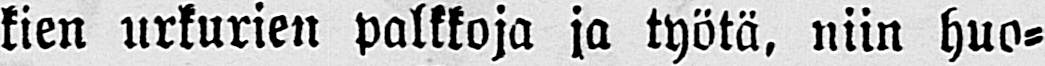kien urkurien palkkoja ja työtä, niin huo-
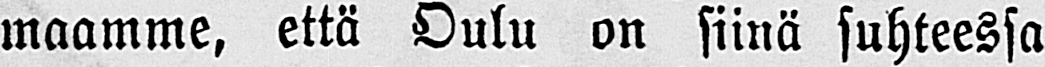maamme, että Oulu on siinä suhteessa
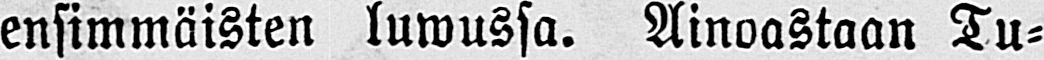ensimmäisten luwussa. Ainoastaan Tu-
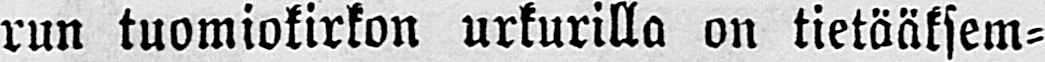run tuomiokirkon urkurilla on tietääksem-
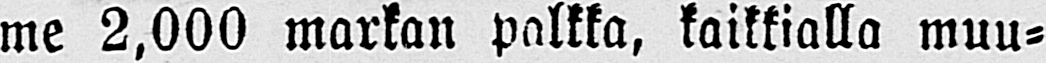me 2,000 markan palkka, kaikkialla muu-
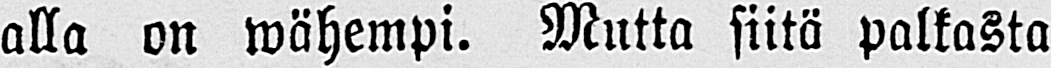alla on wähempi. Mutta siitä palkasta
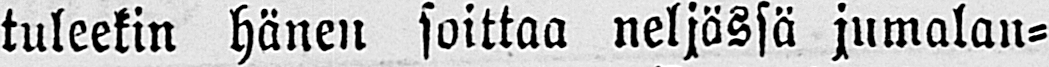tuleekin hänen soittaa neljässä jumalan-
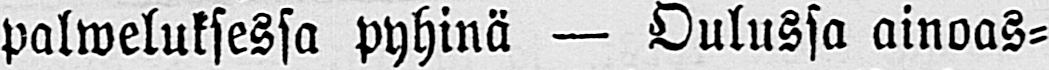palweluksessa pyhinä — Oulussa ainoas-
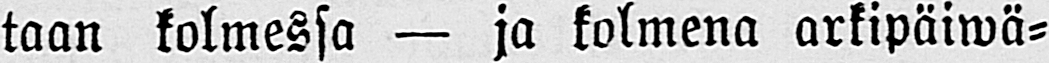taan kolmessa — ja kolmena arkipäiwä-
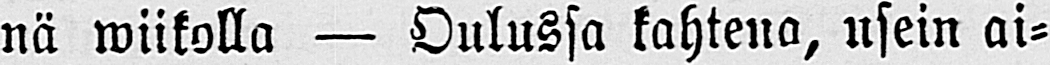nä wiikolla — Oulussa kahtena, usein ai-
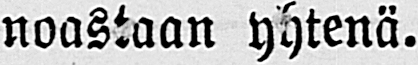noastaan yhtenä.
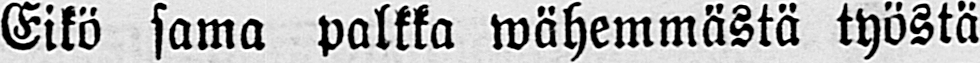Eikö sama palkka wähemmästä työstä
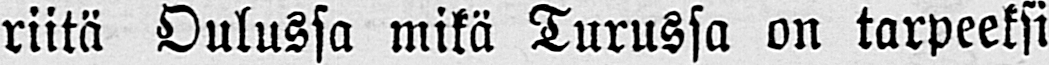riitä Oulussa mikä Turussa on tarpeeksi
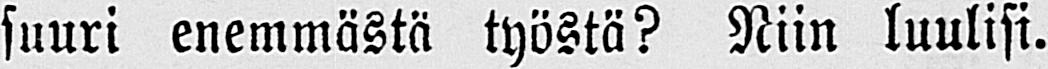suuri enemmästä työstä? Niin luulisi.
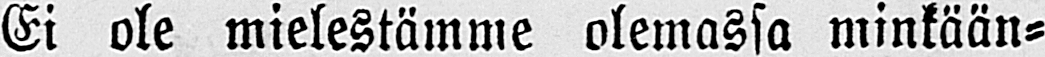Ei ole mielestämme olemassa minkään-
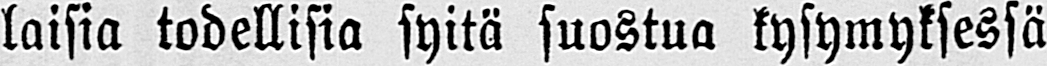laisia todellisia syitä suostua kysymyksessä
